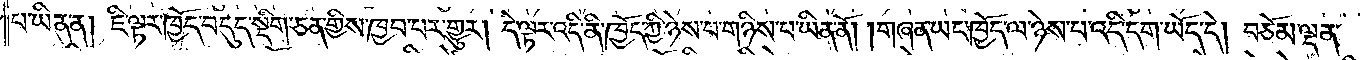པ་ཡིན་ན། ཇི་ལྟར་ཁྱོད་བདུད་སྡིག་ཅན་གྱིས་ཁྱབ་པར་གྱུར། དེ་ལྟར་འདི་ནི་ཁྱོད་ཀྱི་ཉེས་པ་གཉིས་པ་ཡིན་ནོ། །གཞན་ཡང་ཁྱོད་ལ་ཉེས་པ་འདི་དག་ཡོད་དེ། བཅོམ་ལྡན་
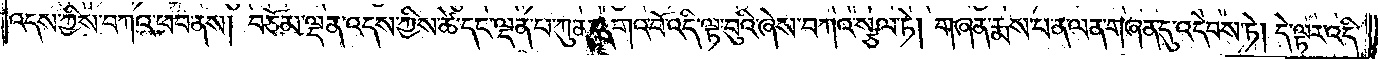འདས་ཀྱིས་བཀའ་ཕབ་ནས། བཅོམ་ལྡན་འདས་ཀྱིས་ཚེ་དང་ལྡན་པ་ཀུན་དགའ་བོ་འདི་ལྟ་བུའི་ཞེས་བཀའ་སྩལ་ཏེ། གཞན་རྨས་པ་ན་ལན་གཞན་དུ་འདེབས་ཏེ། དེ་ལྟར་འདི་
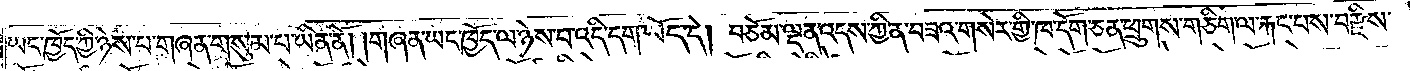ཡང་ཁྱོད་ཀྱི་ཉེས་པ་གཞན་གསུམ་པ་ཡིན་ནོ། །གཞན་ཡང་ཁྱོད་ལ་ཉེས་པ་འདི་དག་ཡོད་དེ། བཅོམ་ལྡན་འདས་ཀྱི་ན་བཟའ་གསེར་གྱི་ཁ་དོག་ཅན་ཕྲུགས་གཅིག་ལ་རྐང་པས་བརྫིས་
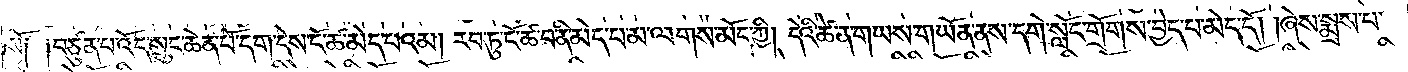སོ༑ ༑བཙུན་པ་འོད་སྲུང་ཆེན་པོ་དག་དེས་ངོ་ཚ་མེད་པའམ། རབ་ཏུ་ངོ་ཚ་བ་ནི་མེད་པ་མ་ལགས་མོད་ཀྱི། དེའི་ཚེ་ན་གཡས་གཡོན་ནས་དགེ་སློང་གྲོགས་བྱེད་པ་མེད་དོ། །ཞེས་སྨྲས་པ་
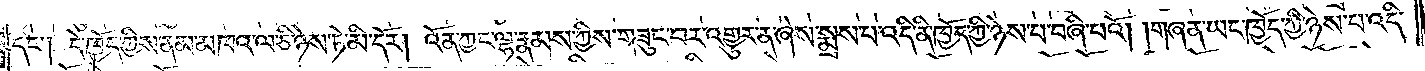དང༌། དེ་ཁྱོད་ཀྱིས་ནམ་མཁའ་ལ་ཅི་ཉེས་ཏེ་མི་དོར། འོན་ཀྱང་ལྷ་རྣམས་ཀྱིས་གཟུང་བར་འགྱུར་ན་ཞེས་སྨྲས་པ་འདི་ནི་ཁྱོད་ཀྱི་ཉེས་པ་བཞི་པའོ། །གཞན་ཡང་ཁྱོད་ཀྱི་ཉེས་པ་འདི་
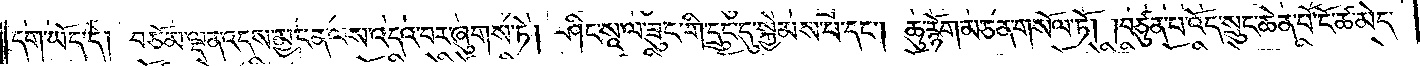དག་ཡོད་དེ། བཅོམ་ལྡན་འདས་མྱ་ངན་ལས་འདའ་བར་ཞུགས་ཏེ། ཤིང་སཱ་ལ་ཟུང་གི་དྲུང་དུ་སྐྱེ་མས་པ་དང༌། ཆུ་རྙོག་མ་ཅན་གསོལ་ཏོ། །བཙུན་པ་འོད་སྲུང་ཆེན་པོ་ངོ་ཚ་མེད་
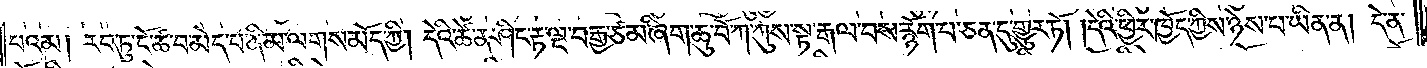པའམ། རབ་ཏུ་ངོ་ཚ་བ་མེད་པ་ནི་མ་ལགས་མོད་ཀྱི། དེའི་ཚེ་ན་ཤིང་རྟ་ལྔ་བརྒྱ་ཙམ་ཞིག་ཆུ་བོ་ཀ་ཀུས་སྟ་རྒལ་བས་རྙོག་པ་ཅན་དུ་གྱུར་ཏོ། །དེའི་ཕྱིར་ཁྱོད་ཀྱིས་ཉེས་པ་ཡིན་ན། དེ་ན་
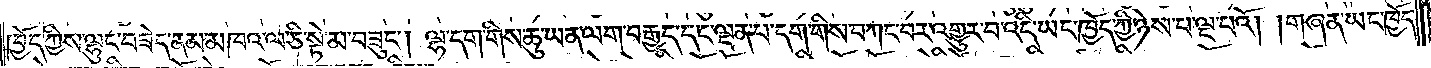ཁྱོད་ཀྱིས་ལྷུང་བཟེད་ནམ་མཁའ་ལ་ཅི་སྟེ་མ་བཟུང༌། ལྷ་དག་གིས་ཆུ་ཡན་ལག་བརྒྱད་དང་ལྡན་པ་དག་གིས་བཀང་བར་འགྱུར་བ་འདི་ཡང་ཁྱོད་ཀྱི་ཉེས་པ་ལྔ་པའོ། །གཞན་ཡང་ཁྱོད་
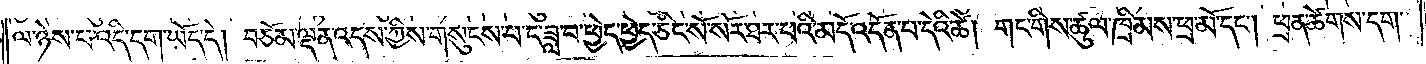ལ་ཉེས་པ་འདི་དག་ཡོད་དེ། བཅོམ་ལྡན་འདས་ཀྱིས་གསུངས་པ་ང་ཟླ་བ་ཕྱེད་ཕྱེད་ཅིང་སོ་སོར་ཐར་པའི་མདོ་འདོན་པ་དེའི་ཚེ། གང་གིས་ཚུལ་ཁྲིམས་ཕྲ་མོ་དང༌། ཕྲན་ཚེགས་དག་
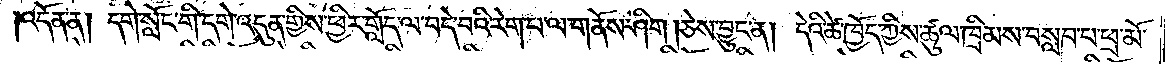།འདོན་ན། དགེ་སློང་གི་དགེ་འདུན་གྱིས་ཕྱིར་གློད་ལ་བདེ་བའི་རེག་པ་ལ་གནོས་ཤིག །ཅེས་བྱུང་ན། དེའི་ཚེ་ཁྱོད་ཀྱིས་ཚུལ་ཁྲིམས་བསླབ་པ་ཕྲ་མོ་
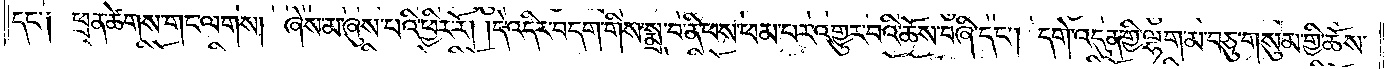དང་༑ ཕྲན་ཚེགས་གང་ལགས། ཞེས་མ་ཞུས་པའི་ཕྱིར་རོ། །དེ་འདིར་བདག་གིས་སྨྲ་བ་ནི་ཕས་ཕམ་པར་འགྱུར་བའི་ཆོས་བཞི་དང༌། དགེ་འདུན་གྱི་ལྷག་མ་བཅུ་གསུམ་གྱི་ཆོས་
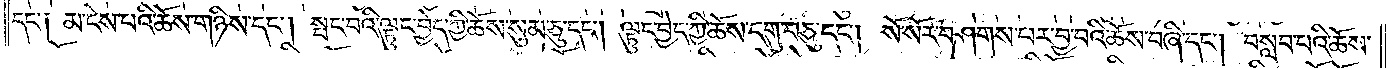དང་༑ མ་ངེས་པའི་ཆོས་གཉིས་དང༌། སྤང་བའི་ལྟུང་བྱེད་ཀྱི་ཆོས་སུམ་ཅུ་དང༌། ལྟུང་བྱེད་ཀྱི་ཆོས་དགུ་བཅུ་དང༌། སོ་སོར་བཤགས་པར་བྱ་བའི་ཆོས་བཞི་དང༌། བསླབ་པའི་ཆོས་
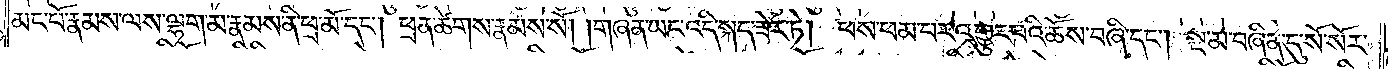མང་པོ་རྣམས་ལས་ལྷག་མ་རྣམས་ནི་ཕྲ་མོ་དང༌། ཕྲན་ཚེགས་རྣམས་སོ། །གཞན་ཡང་འདི་སྐད་ཟེར་ཏེ། ཕས་ཕམ་པར་འགྱུར་བའི་ཆོས་བཞི་དང༌། སྔ་མ་བཞིན་དུ་སོ་སོར་
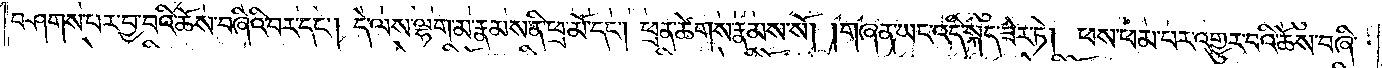བཤགས་པར་བྱ་བའི་ཆོས་བཞིའི་བར་དང༌། དེ་ལས་ལྷག་མ་རྣམས་ནི་ཕྲ་མོ་དང༌། ཕྲན་ཚེགས་རྣམས་སོ། །གཞན་ཡང་འདི་སྐད་ཟེར་ཏེ། ཕས་ཕམ་པར་འགྱུར་བའི་ཆོས་བཞི་
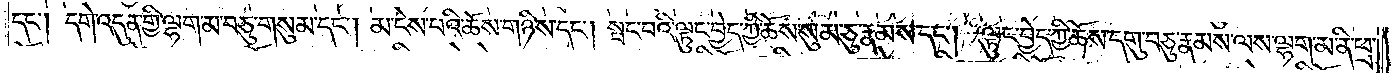དང༌། དགེ་འདུན་གྱི་ལྷག་མ་བཅུ་གསུམ་དང༌། མ་ངེས་པའི་ཆོས་གཉིས་དང༌། སྤང་བའི་ལྟུང་བྱེད་ཀྱི་ཆོས་སུམ་ཅུ་རྣམས་དང༌། ལྟུང་བྱེད་ཀྱི་ཆོས་དགུ་བཅུ་རྣམས་ལས་ལྷག་མ་ནི་ཕྲ་
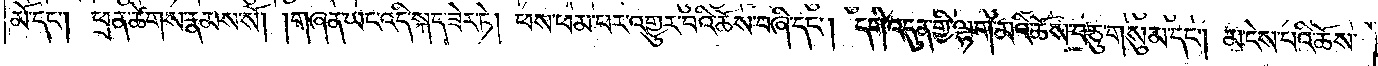མོ་དང༌། ཕྲན་ཚེགས་རྣམས་སོ། །གཞན་ཡང་འདི་སྐད་ཟེར་ཏེ། ཕས་ཕམ་པར་འགྱུར་བའི་ཆོས་བཞི་དང༌། དགེ་འདུན་གྱི་ལྷག་མའི་ཆོས་བཅུ་གསུམ་དང༌། མ་ངེས་པའི་ཆོས་
